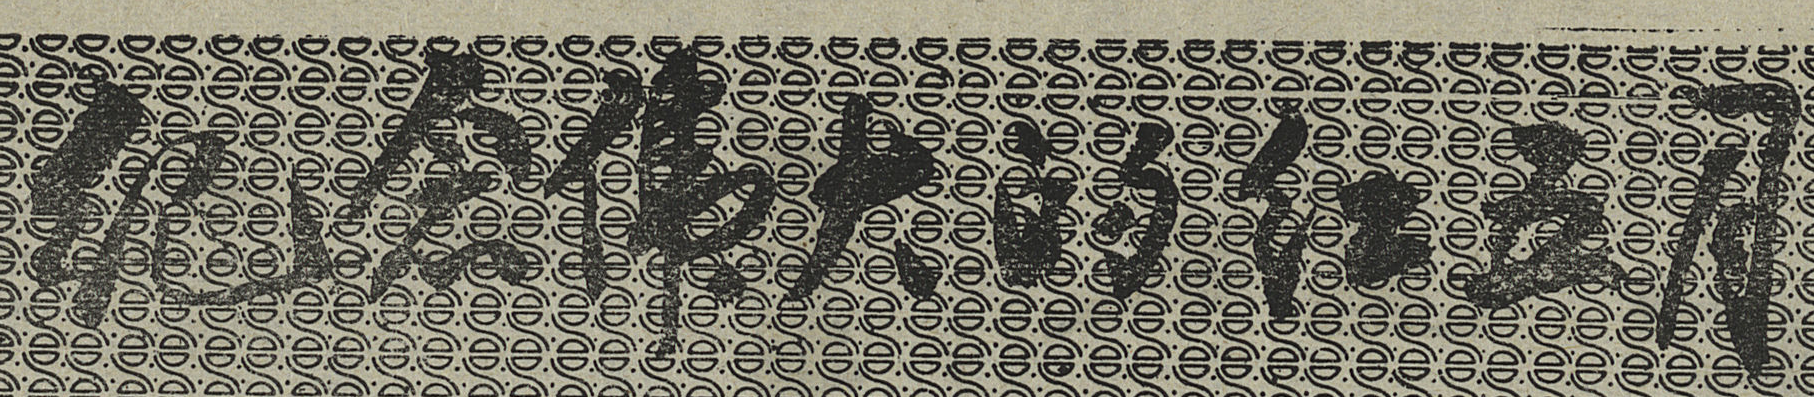纪念伟大的红五月
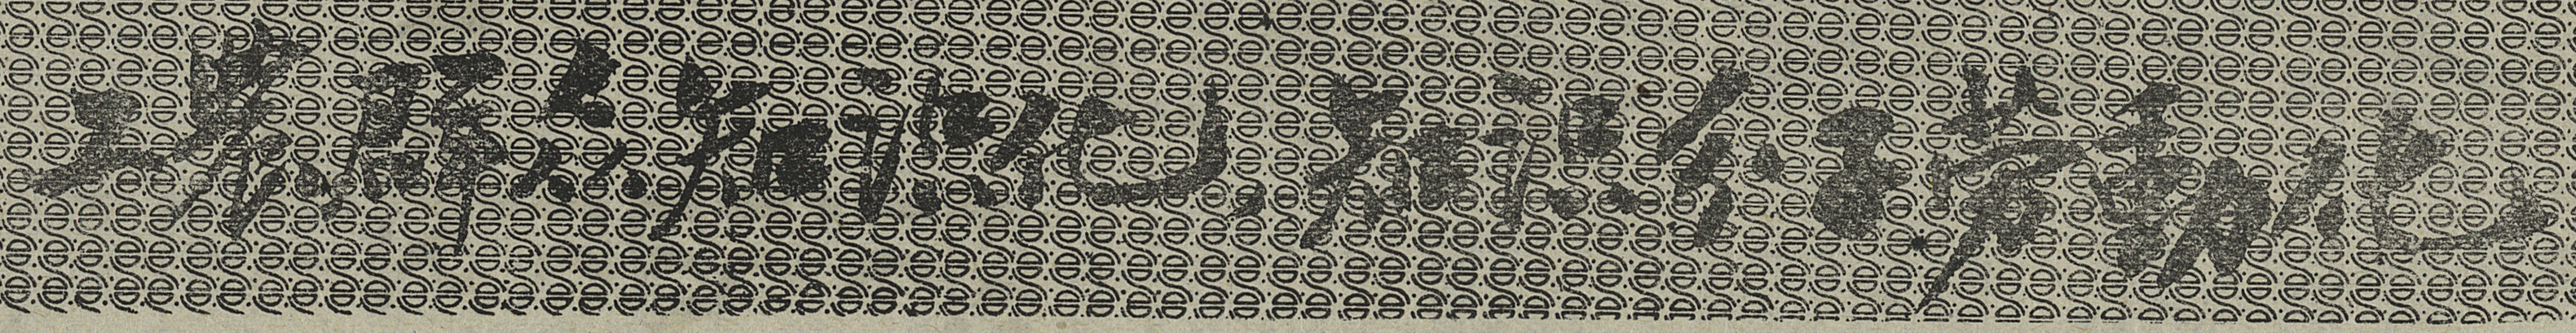工農群众知识化，知识分子劳動化
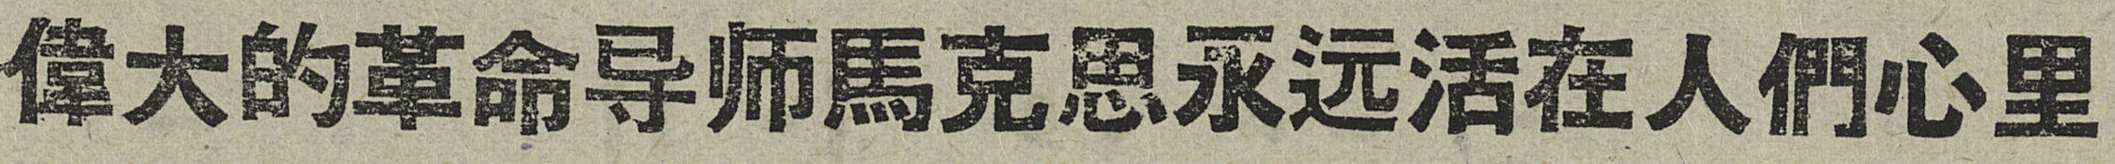偉大的革命导师馬克思永远活在人們心里
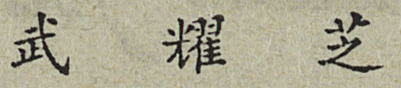武耀芝
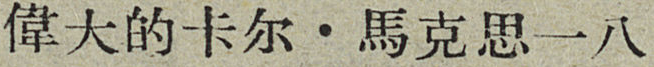偉大的卡尔・馬克思一八
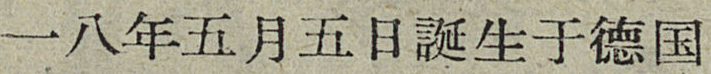一八年五月五日誕生于德国
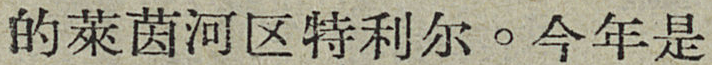的萊茵河区特利尔。今年是
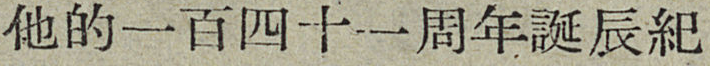他的一百四十一周年誕辰紀
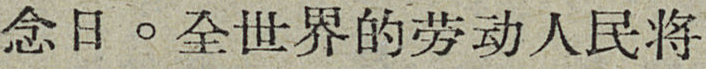念日。全世界的劳动人民将
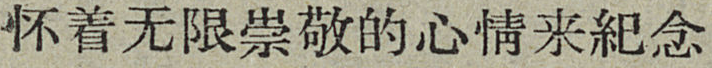怀着无限崇敬的心情来紀念
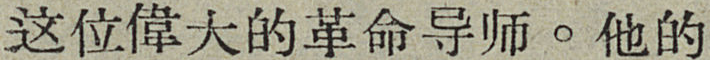这位偉大的革命导师。他的
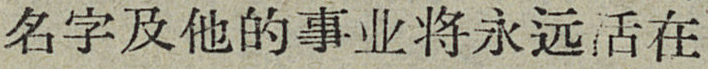名字及他的事业将永远活在
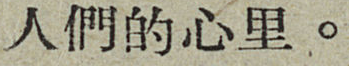人們的心里。
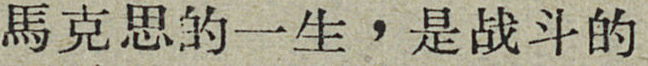馬克思的一生，是战斗的
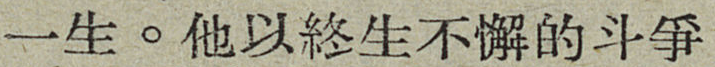一生。他以終生不懈的斗爭
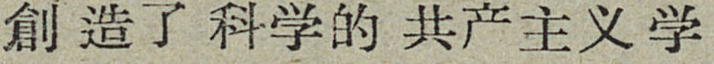創造了科学的共产主义学
